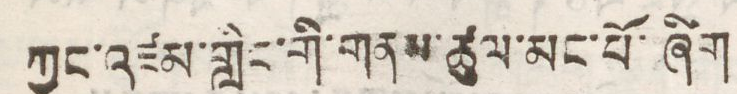ཀྱང་འཛམ་གླིང་གི་གནས་ཚུལ་མང་པོ་ཞིག
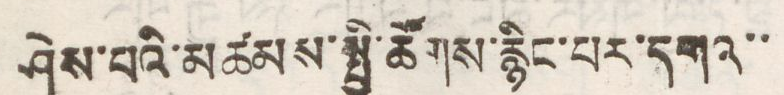ཤེས་པའི་མཚམས་སྤྱི་ཚོགས་རྙིང་པར་དགའ་་
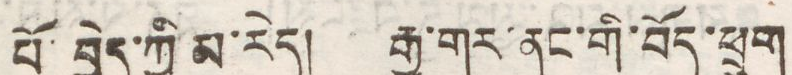པོ་བྱེད་ཀྱི་མ་རེད། རྒྱ་གར་ནང་གི་བོད་ཕྲུག
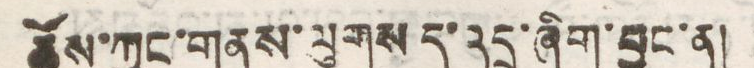ཆོས་ཀྱང་གནས་ལུགས ད་འདྲ་ཞིག་བྱུང་ན།
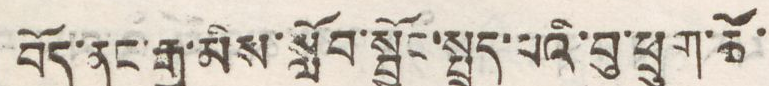བོད་ནང་རྒྱ་མིས་སློབ་སྦྱོང་སྤྲད་པའི་བུ་ཕྲུག་ཚོ་
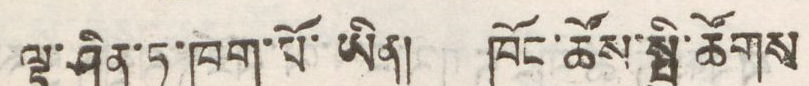ལྟ་ཤིན་ཏུ་ཁག་པོ་ཡིན། ཁོང་ཚོས་སྤྱི་ཚོགས
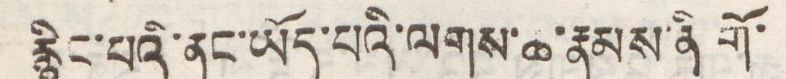རྙིང་པའི་ནང་ཡོད་པའི་ལགས་ཆ་རྣམས་ནི གོ་
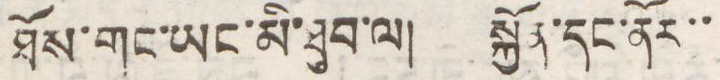ཐོས་གང་ཡང་མི་ཐུབ་ལ། སྐྱོན་དང་ནོར་་
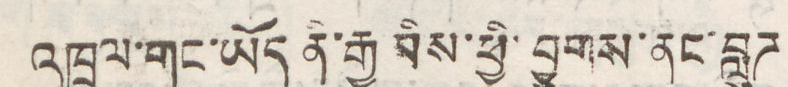འཁྲུལ་གང་ཡོད་ནི་རྒྱ མིས་ཕྱི་བྱུགས་ནང་བླུཌ
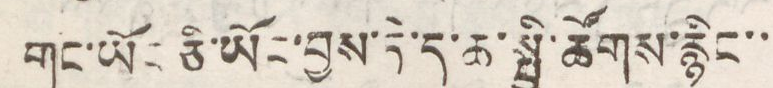གང་ཡོང་ཅི་ཡོང་བྱས་དེ་ད་ཆ་སྤྱི་ཚོགས་རྙིང་་
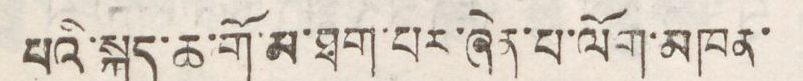པའི་སྐད་ཆ་གོ་མ་ཐག་པར་ཞེན་པ་ལོག་མཁན་
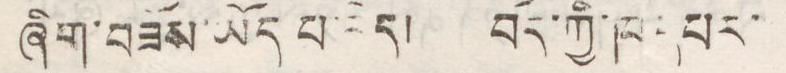ཞིག་བཟོས་ཡོད་པ་རེད། བོད་ཀྱི་ཁ དཔར་
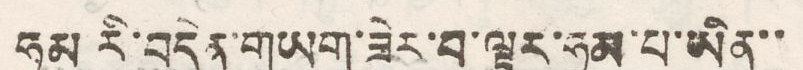ཧམ རི་བདེན་གཡག་ཟེར་བ་ལྟར་ཧམ་པ་ཡིན་་
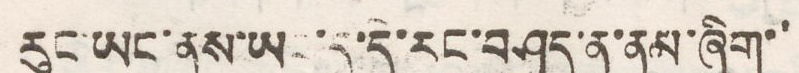རུང་ཡང་ནས་ཡང་དུ་དེ་རང་བཤད་ནམ་ཞིག་་
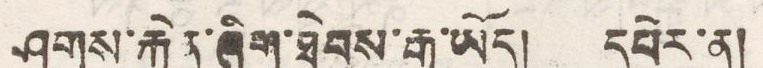ཤུགས་རྐྱེན་ཞིག་ཐེབས་རྒྱུ་ཡོད། དཔེར་ན།
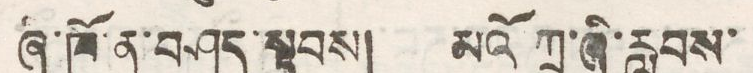ཞི་ཁོ་ན་བཤད་སྟབས། མའོ ཀྲུ་ཞི་རླབས་
